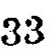33
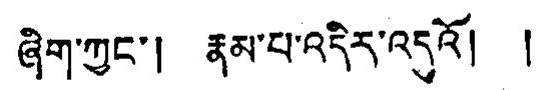ཞིག་ཀྱང་། རྣམ་པ་འདིར་འདུའོ། །
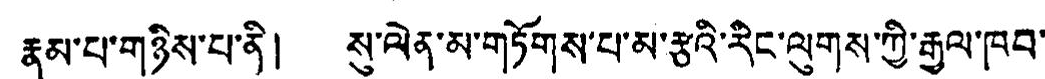རྣམ་པ་གཉིས་པ་ནི། སུ་ལེན་མ་གཏོགས་པ་མ་རྩའི་རིང་ལུགས་ཀྱི་རྒྱལ་ཁབ་
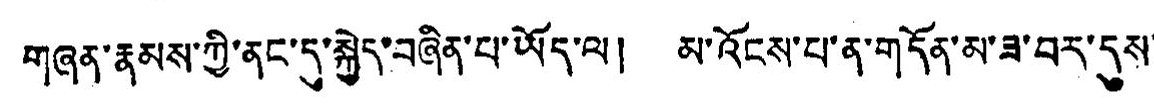གཞན་རྣམས་ཀྱི་ནང་དུ་སྐྱེད་བཞིན་པ་ཡོད་ལ། མ་འོངས་པ་ན་གདོན་མ་ཟ་བར་དུས་
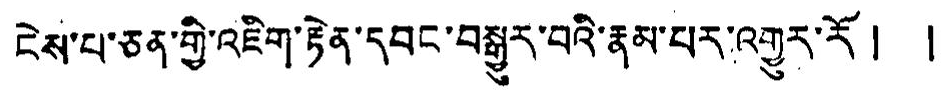ངེས་པ་ཅན་གྱི་འཇིག་རྟེན་དབང་བསྒྱུར་བའི་རྣམ་པར་འགྱུར་རོ། །
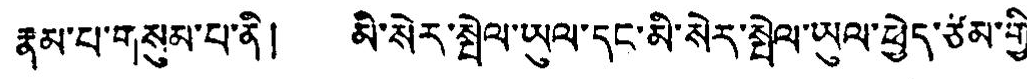རྣམ་པ་གསུམ་པ་ནི། མི་སེར་སྤེལ་ཡུལ་དང་མི་སེར་སྤེལ་ཡུལ་ཕྱེད་ཙམ་གྱི་
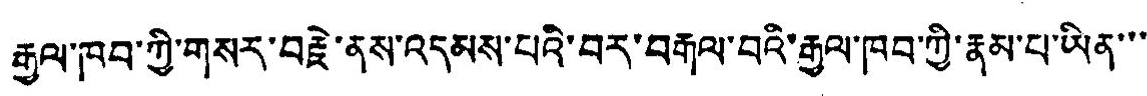རྒྱལ་ཁབ་ཀྱི་གསར་བརྗེ་ནས་འདམས་པའི་བར་བརྒལ་བའི་རྒྱལ་ཁབ་ཀྱི་རྣམ་པ་ཡིན་་་
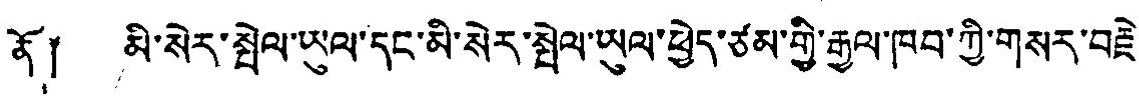ནོ། མི་སེར་སྤེལ་ཡུལ་དང་མི་སེར་སྤེལ་ཡུལ་ཕྱེད་ཙམ་གྱི་རྒྱལ་ཁབ་ཀྱི་གསར་བརྗེ་
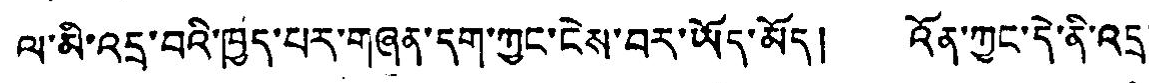ལ་མི་འདྲ་བའི་ཁྱད་པར་གཞན་དག་ཀྱང་ངེས་བར་ཡོད་མོད། འོན་ཀྱང་དེ་ནི་འདྲ་
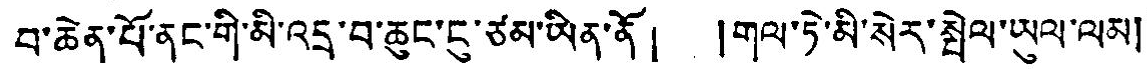བ་ཆེན་པོ་ནང་གི་མི་འདྲ་བ་ཆུང་ངུ་ཙམ་ཡིན་ནོ། །གལ་ཏེ་མི་སེར་སྤེལ་ཡུལ་ལམ།
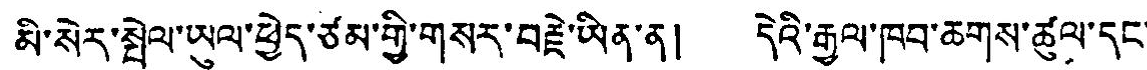མི་སེར་སྤེལ་ཡུལ་ཕྱེད་ཙམ་གྱི་གསར་བརྗེ་ཡིན་ན། དེའི་རྒྱལ་ཁབ་ཆགས་ཚུལ་དང་
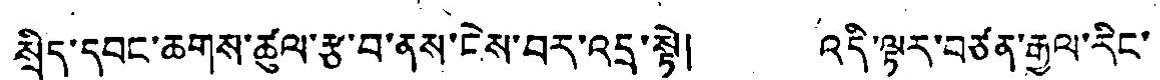སྲིད་དབང་ཆགས་ཚུལ་རྩ་བ་ནས་ངེས་བར་འདྲ་སྟེ། འདི་ལྟར་བཙན་རྒྱལ་རིང་
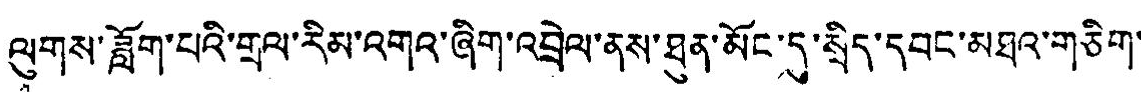ལུགས་ཟློག་པའི་གྲལ་རིམ་འགའ་ཞིག་འབྲེལ་ནས་ཐུན་མོང་དུ་སྲིད་དབང་མཐའ་གཅིག་
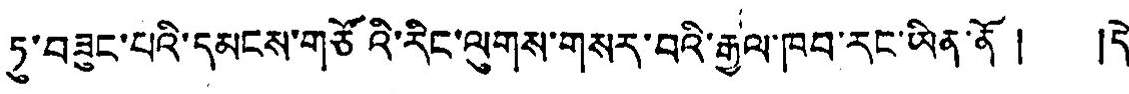ཏུ་བཟུང་པའི་དམངས་གཙོའི་རིང་ལུགས་གསར་བའི་རྒྱལ་ཁབ་རང་ཡིན་ནོ། །དེ་
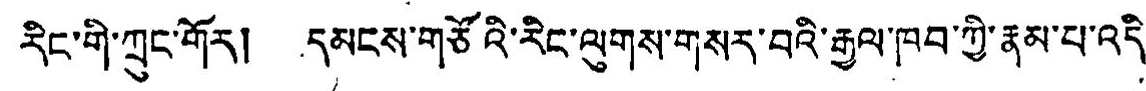རིང་གི་ཀྲུང་གོར། དམངས་གཙོའི་རིང་ལུགས་གསར་བའི་རྒྱལ་ཁབ་ཀྱི་རྣམ་པ་འདི་
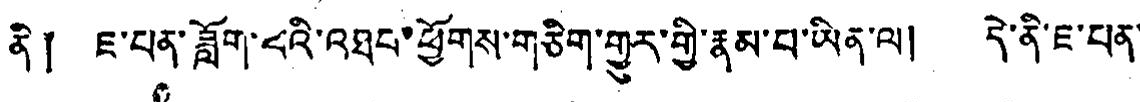ནི། ཇ་པན་ཟློག་པའི་འཐབ་ཕྱོགས་གཅིག་གྱུར་གྱི་རྣམ་པ་ཡིན་ལ། དེ་ནི་ཇ་པན་
